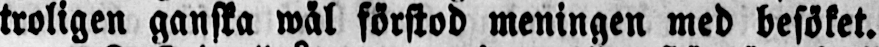troligen ganska wäl förstod meningen med besöket.
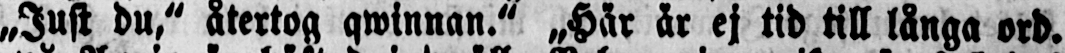„Just du," återtog qwinnan." „Här är ej tid till långa ord.
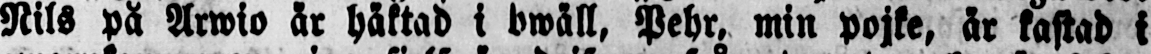Nils på Arwio är häktad i bwäll, Pehr, min pojke, är kastad i
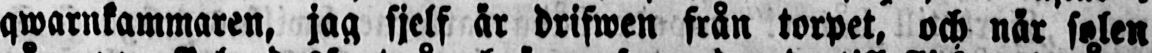qwarnkammaren, jag sjelf är drifwen från torpet, ock när solen
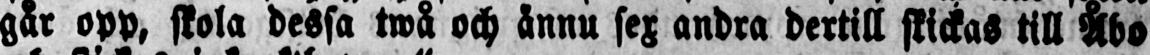går opp, skola dessa twå och ännu sex andra dertill skickas till Åbo
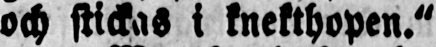och stickas i knekthopen."
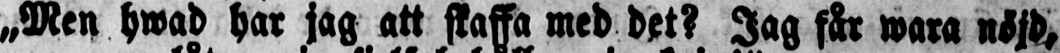„Men hwad har jag att skaffa med det? Jag får wara nöjd,
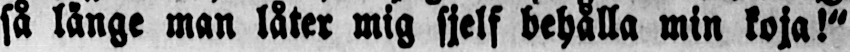så länge man låter mig sjelf behålla min koja!"
